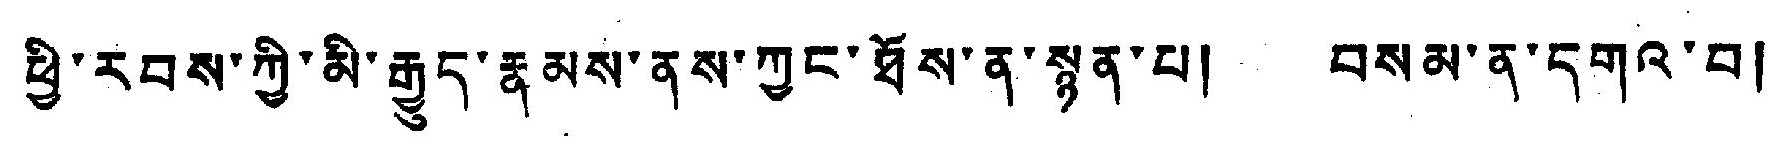ཕྱི་རབས་ཀྱི་མི་རྒྱུད་རྣམས་ནས་ཀྱང་ཐོས་ན་སྙན་པ། བསམ་ན་དགའ་བ།
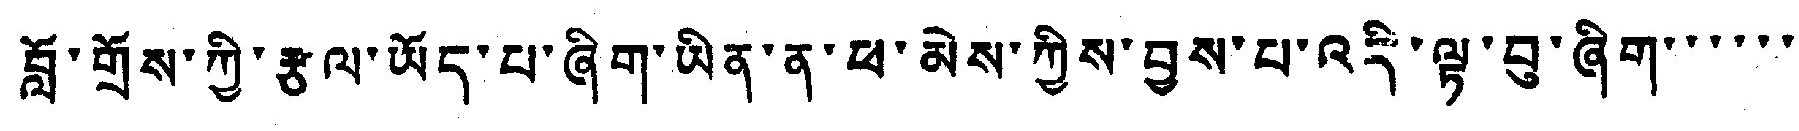བློ་གྲོས་ཀྱི་རྩལ་ཡོད་པ་ཞིག་ཡིན་ན་ཕ་མེས་ཀྱིས་བྱས་པ་འདི་ལྟ་བུ་ཞིག་་་་་་
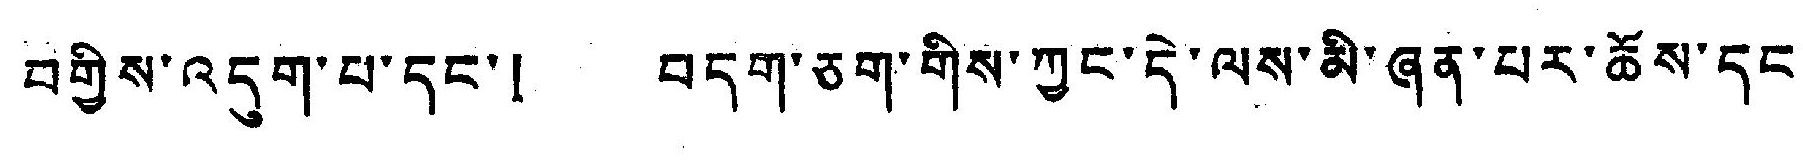བགྱིས་འདུག་པ་དང་། བདག་ཅག་གིས་ཀྱང་དེ་ལས་མི་ཞན་པར་ཆོས་དང་
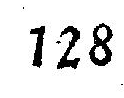128
